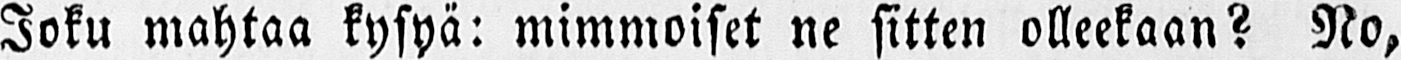Joku mahtaa kysyä: mimmoiset ne sitten olleekaan? No,
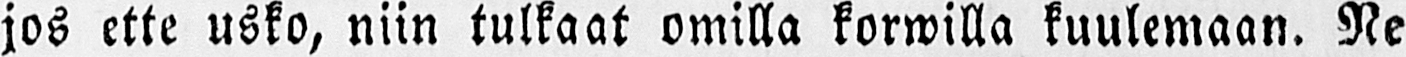jos ette usko, niin tulkaat omilla korwilla kuulemaan. Ne
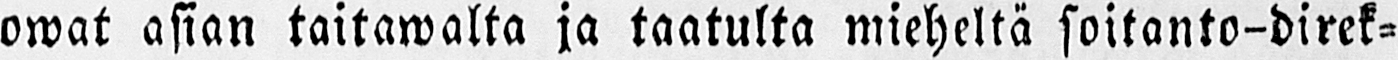owat asian taitawalta ja taatulta mieheltä soitanto-direk-
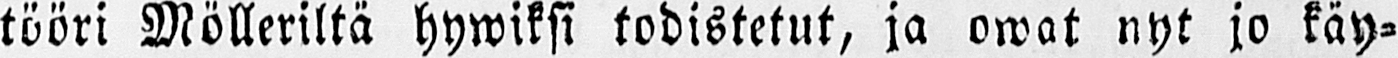tööri Mölleriltä hywiksi todistetut, ja owat nyt jo käy-
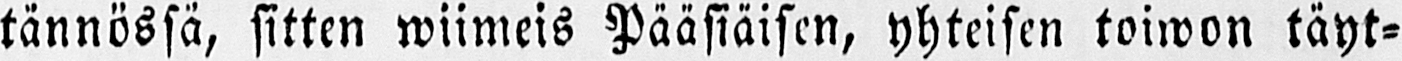tännössä, sitten wiimeis Pääsiäisen, yhteisen toiwon täyt-
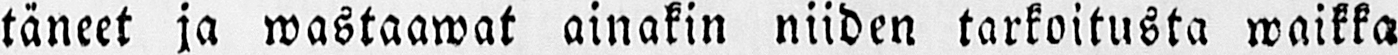täneet ja wastaawat ainakin niiden tarkoitusta waikka
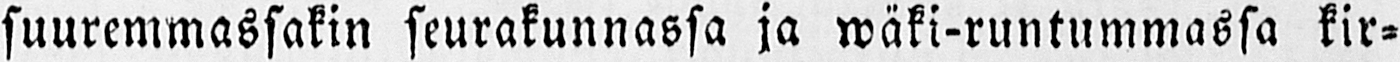suuremmassakin seurakunnassa ja wäki-runtummassa kir-
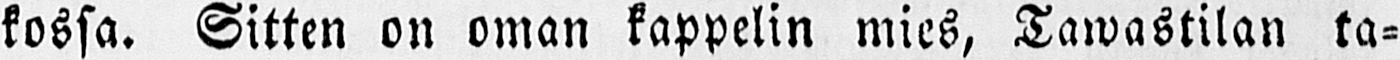kossa. Sitten on oman kappelin mies, Tawastilan ta-
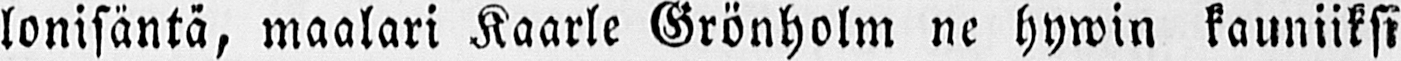lonisäntä, maalari Kaarle Grönholm ne hywin kauniiksi
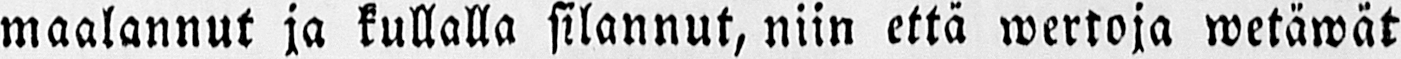maalannut ja kullalla silannut, niin että wertoja wetäwät
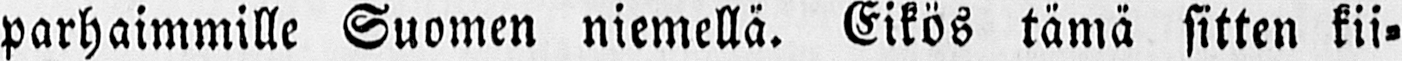parhaimmille Suomen niemellä. Eikös tämä sitten kii-
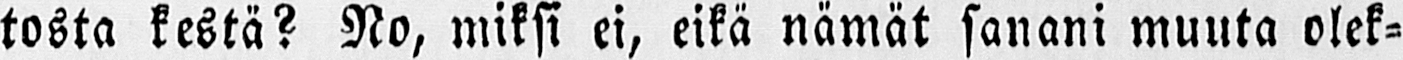tosta kestä? No, miksi ei, eikä nämät sanani muuta olek-
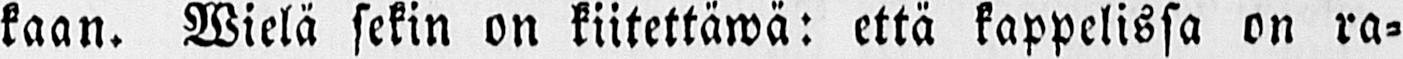kaan. Wielä sekin on kiitettäwä: että kappelissa on ra-
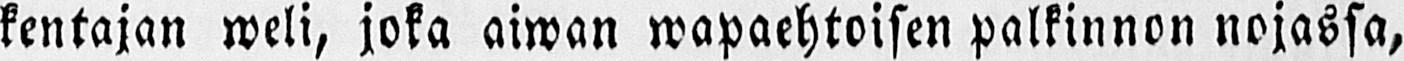kentajan weli, joka aiwan wapaehtoisen palkinnon nojassa,
